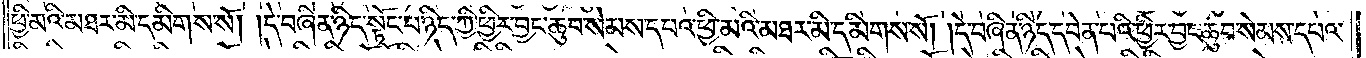ཕྱི་མའི་མཐར་མི་དམིགས་སོ། །དེ་བཞིན་ཉིད་སྟོང་པ་ཉིད་ཀྱི་ཕྱིར་བྱང་ཆུབ་སེམས་དཔའ་ཕྱི་མའི་མཐར་མི་དམིགས་སོ། །དེ་བཞིན་ཉིད་དབེན་པའི་ཕྱིར་བྱང་ཆུབ་སེམས་དཔའ་
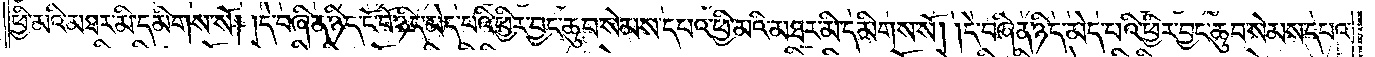ཕྱི་མའི་མཐར་མི་དམིགས་སོ། །དེ་བཞིན་ཉིད་ངོ་བོ་ཉིད་མེད་པའི་ཕྱིར་བྱང་ཆུབ་སེམས་དཔའ་ཕྱི་མའི་མཐར་མི་དམིགས་སོ། །དེ་བཞིན་ཉིད་མེད་པའི་ཕྱིར་བྱང་ཆུབ་སེམས་དཔའ་
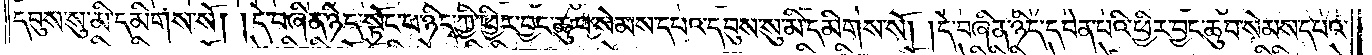དབུས་སུ་མི་དམིགས་སོ། །དེ་བཞིན་ཉིད་སྟོང་པ་ཉིད་ཀྱི་ཕྱིར་བྱང་ཆུབ་སེམས་དཔའ་དབུས་སུ་མི་དམིགས་སོ། །དེ་བཞིན་ཉིད་དབེན་པའི་ཕྱིར་བྱང་ཆུབ་སེམས་དཔའ་
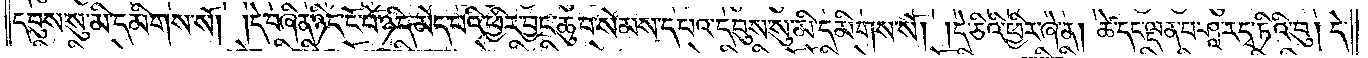དབུས་སུ་མི་དམིགས་སོ། །དེ་བཞིན་ཉིད་ངོ་བོ་ཉིད་མེད་པའི་ཕྱིར་བྱང་ཆུབ་སེམས་དཔའ་དབུས་སུ་མི་དམིགས་སོ། །དེ་ཅིའི་ཕྱིར་ཞེ་ན། ཚེ་དང་ལྡན་པ་ཤཱ་རདྭ་ཏིའི་བུ། དེ་
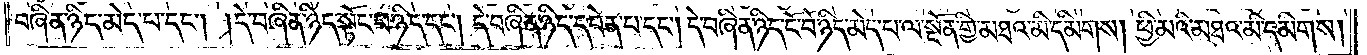བཞིན་ཉིད་མེད་པ་དང༌། དེ་བཞིན་ཉིད་སྟོང་པ་ཉིད་དང༌། དེ་བཞིན་ཉིད་དབེན་པ་དང༌། དེ་བཞིན་ཉིད་ངོ་བོ་ཉིད་མེད་པ་ལ་སྔོན་གྱི་མཐའ་མི་དམིགས། ཕྱི་མའི་མཐའ་མི་དམིགས།
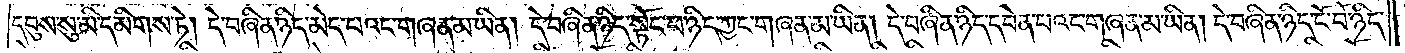དབུས་མི་དམིགས་ཏེ། དེ་བཞིན་ཉིད་མེད་པའང་གཞན་མ་ཡིན། དེ་བཞིན་ཉིད་སྟོང་པ་ཉིད་ཀྱང་གཞན་མ་ཡིན། དེ་བཞིན་ཉིད་དབེན་པའང་གཞན་མ་ཡིན། དེ་བཞིན་ཉིད་ངོ་བོ་ཉིད་
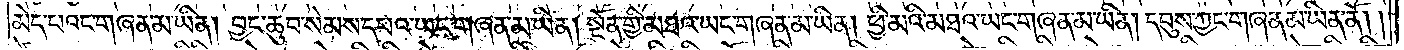མེད་པའང་གཞན་མ་ཡིན། བྱང་ཆུབ་སེམས་དཔའ་ཡང་གཞན་མ་ཡིན། སྔོན་གྱི་མཐའ་ཡང་གཞན་མ་ཡིན། ཕྱི་མའི་མཐའ་ཡང་གཞན་མ་ཡིན། དབུས་ཀྱང་གཞན་མ་ཡིན་ནོ། །
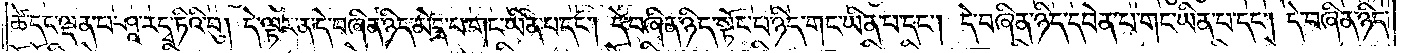ཚེ་དང་ལྡན་པ་ཤཱ་རདྭ་ཏིའི་བུ། དེ་ལྟར་ན་དེ་བཞིན་ཉིད་མེད་པ་གང་ཡིན་པ་དང༌། དེ་བཞིན་ཉིད་སྟོང་པ་ཉིད་གང་ཡིན་པ་དང༌། དེ་བཞིན་ཉིད་དབེན་པ་གང་ཡིན་པ་དང༌། དེ་བཞིན་ཉིད་
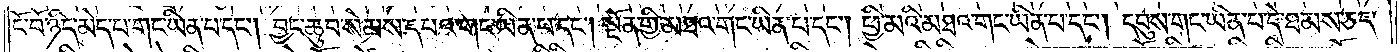ངོ་བོ་ཉིད་མེད་པ་གང་ཡིན་པ་དང༌། བྱང་ཆུབ་སེམས་དཔའ་གང་ཡིན་པ་དང༌། སྔོན་གྱི་མཐའ་གང་ཡིན་པ་དང༌། ཕྱི་མའི་མཐའ་གང་ཡིན་པ་དང༌། དབུས་གང་ཡིན་པ་དེ་ཐམས་ཅད་
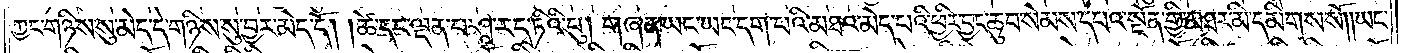ཀྱང་གཉིས་སུ་མེད་དེ་གཉིས་སུ་བྱར་མེད་དོ། །ཚེ་དང་ལྡན་པ་ཤཱ་རདྭ་ཏིའི་བུ། གཞན་ཡང་ཡང་དག་པའི་མཐའ་མེད་པའི་ཕྱིར་བྱང་ཆུབ་སེམས་དཔའ་སྔོན་གྱི་མཐར་མི་དམིགས་སོ། །ཡང་
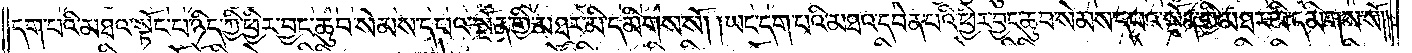དག་པའི་མཐའ་སྟོང་པ་ཉིད་ཀྱི་ཕྱིར་བྱང་ཆུབ་སེམས་དཔའ་སྔོན་གྱི་མཐར་མི་དམིགས་སོ། །ཡང་དག་པའི་མཐའ་དབེན་པའི་ཕྱིར་བྱང་ཆུབ་སེམས་དཔའ་སྔོན་གྱི་མཐར་མི་དམིགས་སོ། །
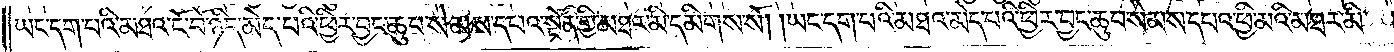ཡང་དག་པའི་མཐའ་ངོ་བོ་ཉིད་མེད་པའི་ཕྱིར་བྱང་ཆུབ་སེམས་དཔའ་སྔོན་གྱི་མཐར་མི་དམིགས་སོ། །ཡང་དག་པའི་མཐའ་མེད་པའི་ཕྱིར་བྱང་ཆུབ་སེམས་དཔའ་ཕྱི་མའི་མཐར་མི་
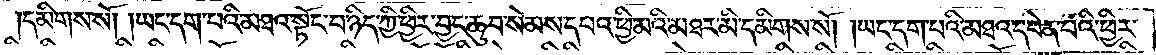དམིགས་སོ། །ཡང་དག་པའི་མཐའ་སྟོང་པ་ཉིད་ཀྱི་ཕྱིར་བྱང་ཆུབ་སེམས་དཔའ་ཕྱི་མའི་མཐར་མི་དམིགས་སོ། །ཡང་དག་པའི་མཐའ་དབེན་པའི་ཕྱིར་
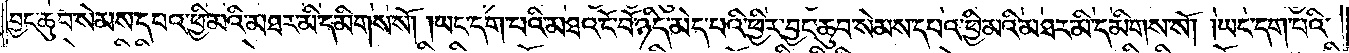བྱང་ཆུབ་སེམས་དཔའ་ཕྱི་མའི་མཐར་མི་དམིགས་སོ། །ཡང་དག་པའི་མཐའ་ངོ་བོ་ཉིད་མེད་པའི་ཕྱིར་བྱང་ཆུབ་སེམས་དཔའ་ཕྱི་མའི་མཐར་མི་དམིགས་སོ། །ཡང་དག་པའི་
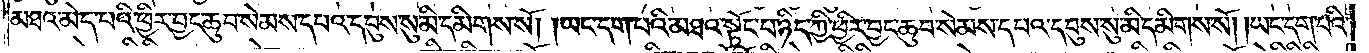མཐའ་མེད་པའི་ཕྱིར་བྱང་ཆུབ་སེམས་དཔའ་དབུས་སུ་མི་དམིགས་སོ། །ཡང་དག་པའི་མཐའ་སྟོང་པ་ཉིད་ཀྱི་ཕྱིར་བྱང་ཆུབ་སེམས་དཔའ་དབུས་སུ་མི་དམིགས་སོ། །ཡང་དག་པའི་
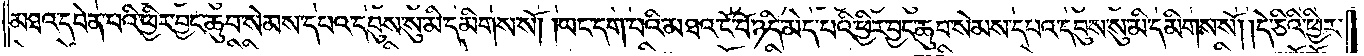མཐའ་དབེན་པའི་ཕྱིར་བྱང་ཆུབ་སེམས་དཔའ་དབུས་སུ་མི་དམིགས་སོ། །ཡང་དག་པའི་མཐའ་ངོ་བོ་ཉིད་མེད་པའི་ཕྱིར་བྱང་ཆུབ་སེམས་དཔའ་དབུས་སུ་མི་དམིགས་སོ། །དེ་ཅིའི་ཕྱིར་
